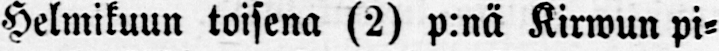Helmikuun toisena (2) p:nä Kirwun pi-
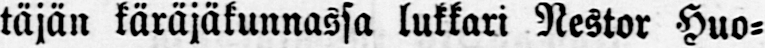täjän käräjäkunnassa lukkari Nestor Huo-
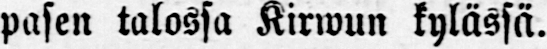pasen talossa Kirwun kylässä.
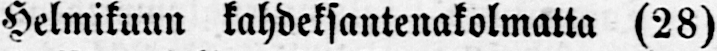Helmikuun kahdeksantenakolmatta (28)
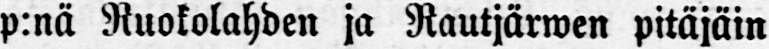p:nä Ruokolahden ja Rautjärwen pitäjäin
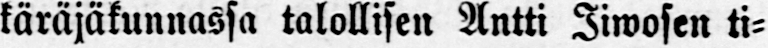käräjäkunnassa talollisen Antti Iiwosen ti-
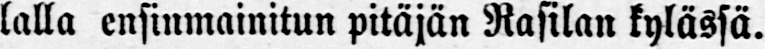lalla ensinmainitun pitäjän Rasilan kylässä.
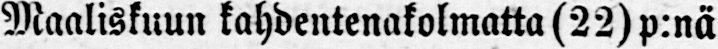Maaliskuun kahdentenakolmatta (22) p:nä
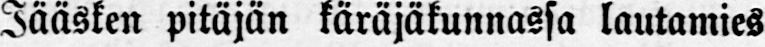Jääsken pitäjän käräjäkunnassa lautamies
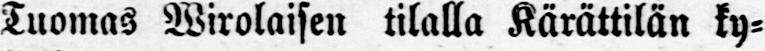Tuomas Wirolaisen tilalla Kärättilän ky-
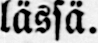lässä.
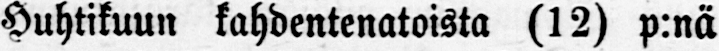Huhtikuun kahdentenatoista (12) p:nä
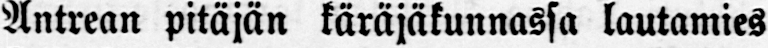Antrean pitäjän käräjäkunnassa lautamies
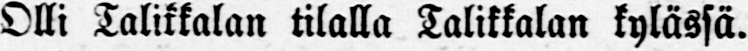Olli Talikkalan tilalla Talikkalan kylässä.
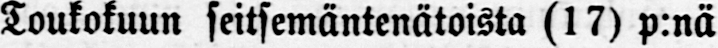Toukokuun seitsemäntenätoista (17) p:nä
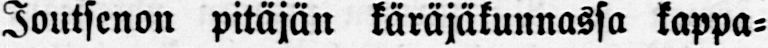Joutsenon pitäjän käräjäkunnassa kappa-
